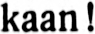kaan!
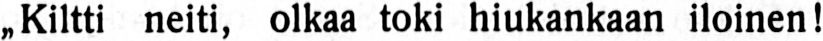„Kiltti neiti, olkaa toki hiukankaan iloinen!
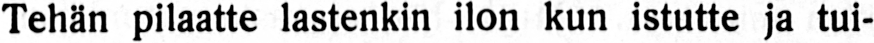Tehän pilaatte lastenkin ilon kun istutte ja tui-
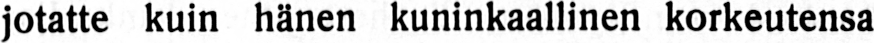jotatte kuin hänen kuninkaallinen korkeutensa
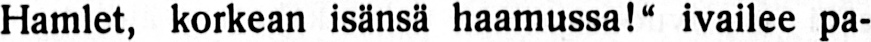Hamlet, korkean isänsä haamussa!" ivailee pa-
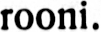rooni.
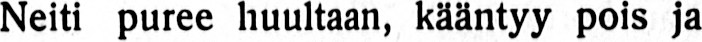Neiti puree huultaan, kääntyy pois ja pyyh-
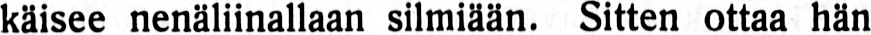käisee nenäliinallaan silmiään. Sitten ottaa hän
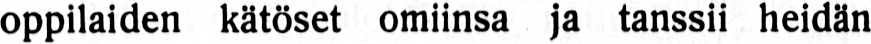oppilaiden kätöset omiinsa ja tanssii heidän
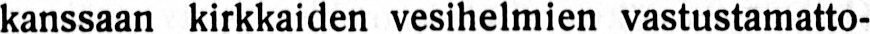kanssaan kirkkaiden vesihelmien vastustamatto-
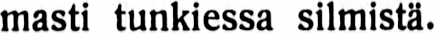masti tunkiessa silmistä.
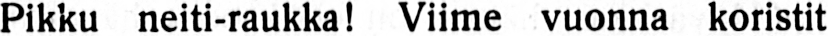Pikku neiti-raukka! Viime vuonna koristit
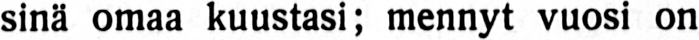sinä omaa kuustasi; mennyt vuosi on ryöstänyt
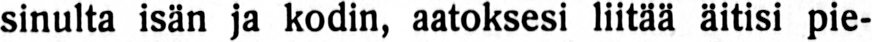sinulta isän ja kodin, aatoksesi liitää äitisi pie-
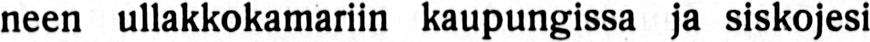neen ullakkokamariin kaupungissa ja siskojesi
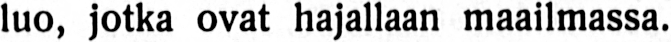luo, jotka ovat hajallaan maailmassa.
